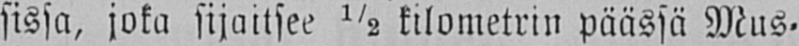sissa, joka sijaitsee ½ kilometrin päässä Mus-
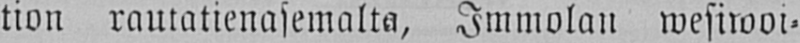tion rautatienasemalta, Immolan wesiwoi-
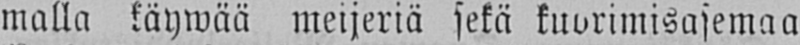malla käywää meijeriä sekä kuorimisasemaa
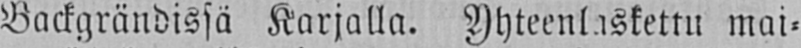Backgrändissä Karjalla. Yhteenlaskettu mai-
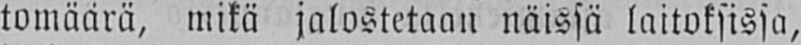tomäärä, mikä jalostetaan näissä laitoksissa,
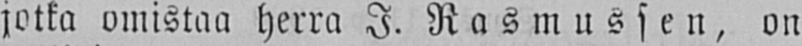jotka omistaa herra I. Rasmussen, on
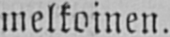melkoinen.
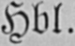Hbl.
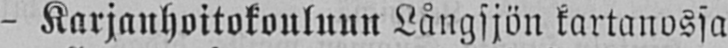- Karjanhoitokouluun Långsjön kartanossa
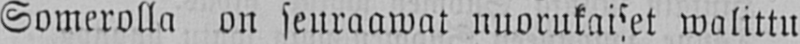Somerolla on seuraawat nuorukaiset walittu
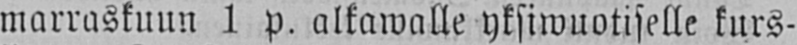marraskuun 1 p. alkawalle yksiwuotiselle kurs-
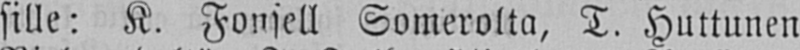sille: K. Fonsell Somerolta, T. Huttunen
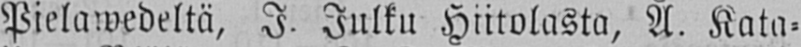Pielawedeltä, J. Julku Hiitolasta, A. Kata-
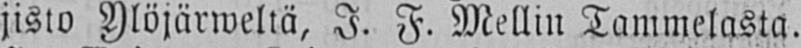jisto Ylöjärweltä, J. F. Mellin Tammelasta.
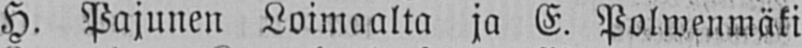H. Pajunen Loimaalta ja E. Polwenmäki
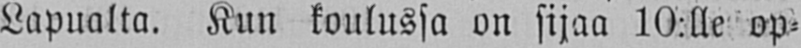Lapualta. Kun koulussa on sijaa 10:lle op-
